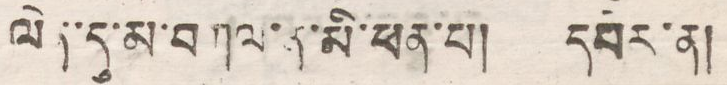ལེན་དུ་མ་བཀལ་ན་མི་ཕན་པ། དཔེར་ན།
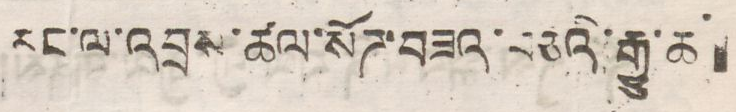རང་ལ་འབྲས་ཚལ་སོཌ་བཟའ་བཅའི་རྒྱ་ཆ
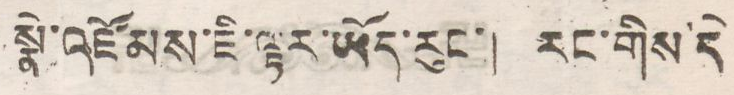སྣེ་འཛོམས་ཇི་ལྟར་ཡོད་རུང་། རང་གིས་དེ
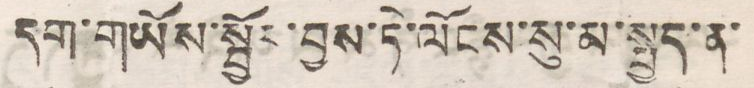དག་གཡོས་སྦྱོར་བྱས་ཏེ་ལོངས་སུ་མ་སྤྱད་ན་
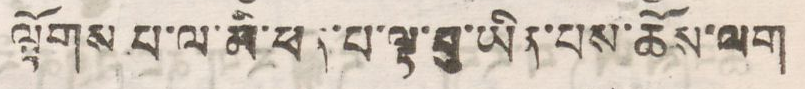ལྟོགས པ་ལ་མི་ཕན་པ་ལྟ་བུ་ཡིན་པས་ཆོས་ལག
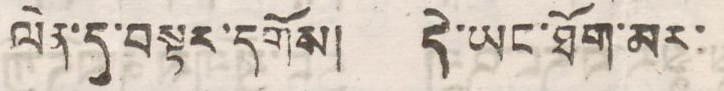ལེན་དུ་བསྟར་དགོས། དེ་ཡང་ཐོག་མར་
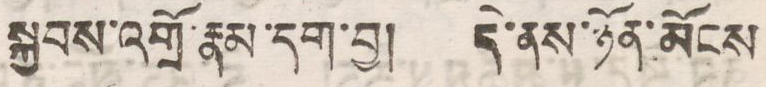སྐྱབས་འགྲོ་རྣམ་དག་བྱ། དེ་ནས་ཉོན་མོངས
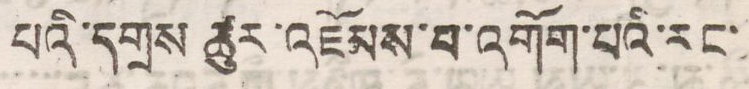པའི་དགྲས ཚུར་འཛོམས་པ་འགོག་པའི་རང་
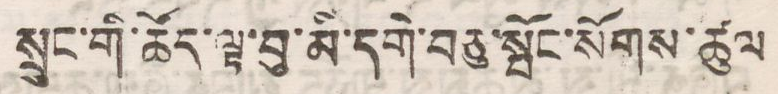སྲུང་གི་ཚོད་ལྟ་བུ་མི་དགེ་བཅུ་སྤོང་སོགས་ཚུལ
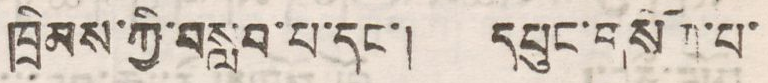ཁྲིམས་ཀྱི་བསླབ་པ་དང་། དཔུང་གསོག་པ་
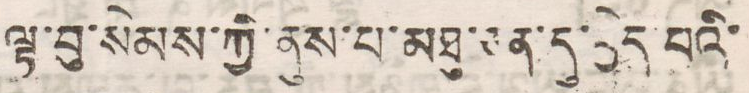ལྟ་བུ་སེམས་ཀྱི་ནུས་པ་མཐུ་ཅན་དུ་བྱེད་པའི་
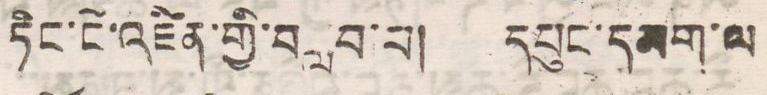ཏིང་ངེ་འཛིན་གྱི་བསླབ་པ། དཔུང་དམག་ལ
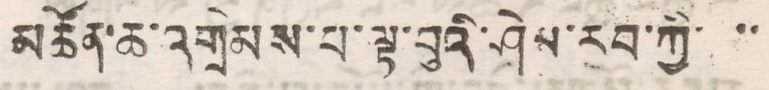མཚོན་ཆ་འགྲེམས་པ་ལྟ་བུའི་ཤེས་རབ་ཀྱི་ ་་
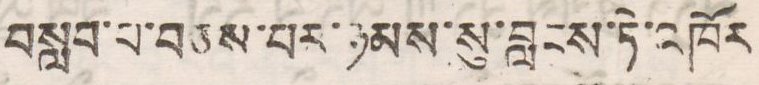བསླབ་པ་བཅས་པར་ཉམས་སུ་བླངས་ཏེ་འཁོར
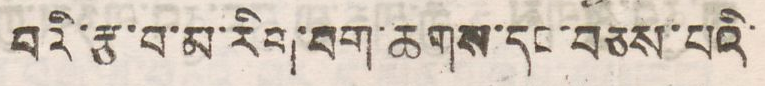བའི་རྩ་བ་མ་རིག་བག་ཆགས་དང་བཅས་པའི་
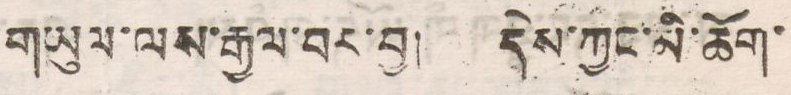གཡུལ་ལས་རྒྱལ་བར་བྱ། དེས་ཀྱང་མི་ཆོག་
